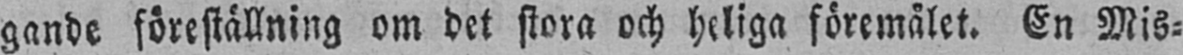gande föreställning om det stora och heliga föremålet. En Mis-
